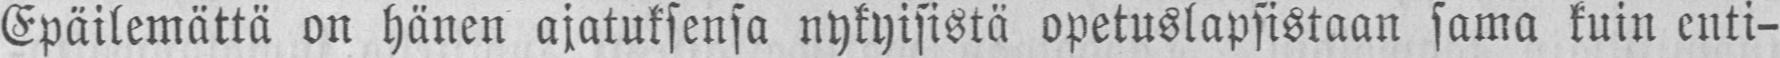Epäilemättä on hänen ajatuksensa nykyisistä opetuslapsistaan sama kuin enti-
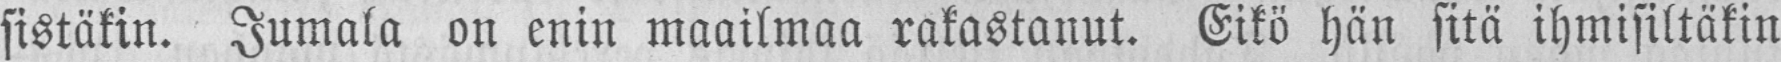sistäkin. Jumala on enin maailmaa rakastanut. Eikö hän sitä ihmisiltäkin
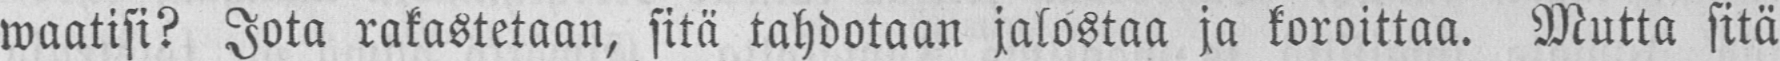waatisi? Jota rakastetaan, sitä tahdotaan jalostaa ja koroittaa. Mutta sitä
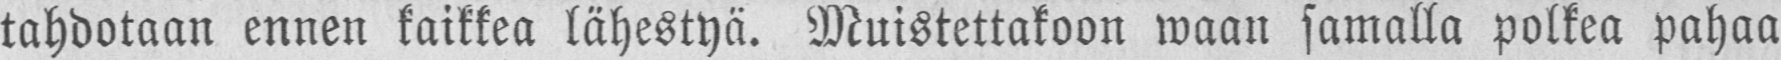tahdotaan ennen kaikkea lähestyä. Muistettakoon waan samalla polkea pahaa
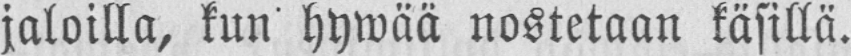jaloilla, kun hywää nostetaan käsillä.
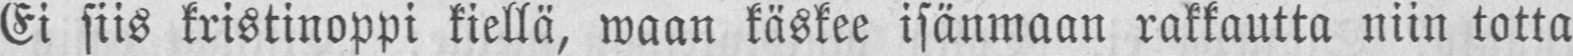Ei siis kristinoppi kiellä, waan käskee isänmaan rakkautta niin totta
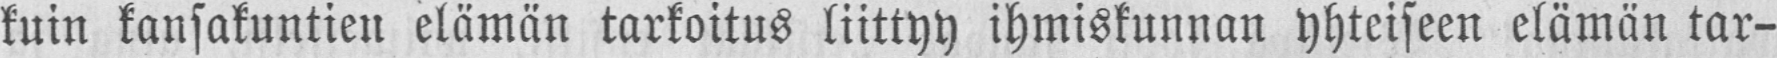kuin kansakuntien elämän tarkoitus liittyy ihmiskunnan yhteiseen elämän tar-
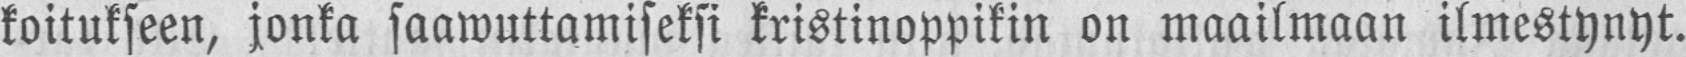koitukseen, jonka saawuttamiseksi kristinoppikin on maailmaan ilmestynyt.
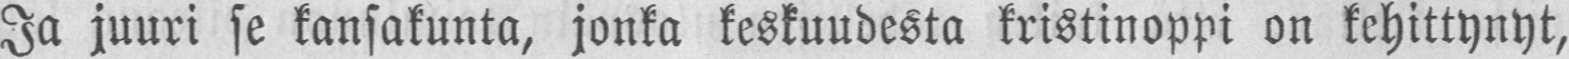Ja juuri se kansakunta, jonka keskuudesta kristinoppi on kehittynyt,
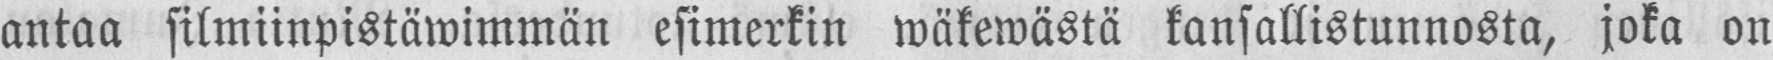antaa silmiinpistäwimmän esimerkin wäkewästä kansallistunnosta, joka on
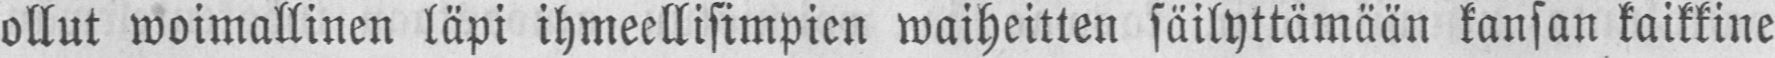ollut woimallinen läpi ihmeellisimpien waiheitten säilyttämään kansan kaikkine
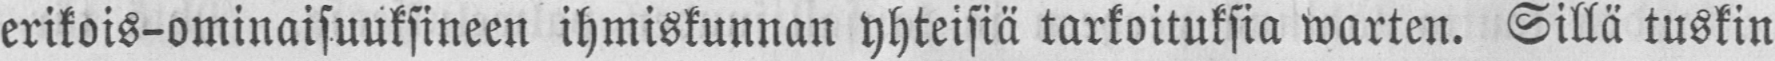erikois-ominaisuuksineen ihmiskunnan yhteisiä tarkoituksia warten. Sillä tuskin
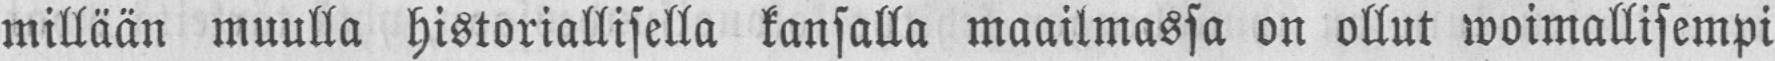millään muulla historiallisella kansalla maailmassa on ollut woimallisempi
